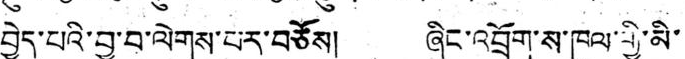བྱེད་པའི་བྱ་བ་ལེགས་པར་བཅོས། ཞིང་འབྲོག་ས་ཁུལ་གྱི་མི་
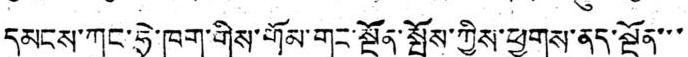དམངས་ཀུང་ཧྲེ་ཁག་གིས་གོམ་གང་སྔོན་སྤོས་ཀྱིས་ཕྱུགས་ནད་སྔོན་་་
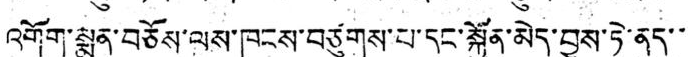འགོག་སྨན་བཅོས་ལས་ཁུངས་བཙུགས་པ་དང་སྐྱོན་མེད་བྱས་ཏེ་ནད་་
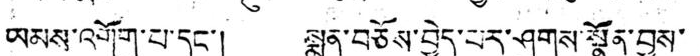ཡམས་འགོག་པ་དང་། སྨན་བཅོས་བྱེད་པར་ཤུགས་སྣོན་བྱས་
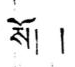སོ། །
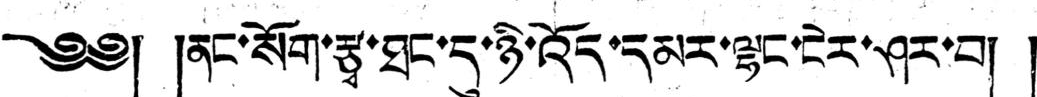༄༅། །ནང་སོག་རྩྭ་ཐང་དུ་ཉི་འོད་དམར་ལྷང་ངེར་ཤར་བ། །
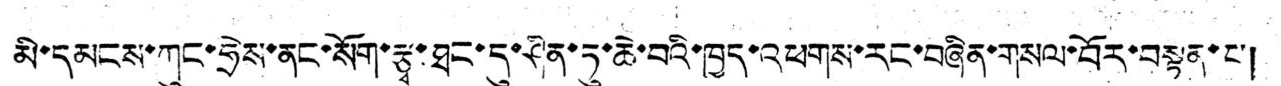མི་དམངས་ཀུང་ཧྲེས་ནང་སོག་རྩྭ་ཐང་དུ་ཤིན་ཏུ་ཆེ་བའི་ཁྱད་འཕགས་རང་བཞིན་གསལ་བོར་བསྟན་པ།
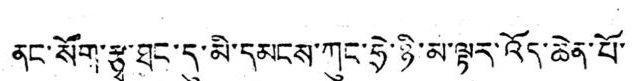ནང་སོག་རྩྭ་ཐང་དུ་མི་དམངས་ཀུང་ཧྲེ་ཉི་མ་ལྟར་འོད་ཆེན་པོ་
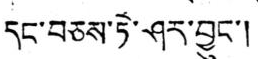དང་བཅས་ཏེ་ཤར་བྱུང་།
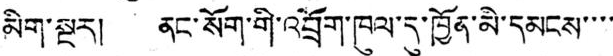མིག་སྔར། ནང་སོག་གི་འབྲོག་ཁུལ་དུ་ཁྱོན་མི་དམངས་་་་
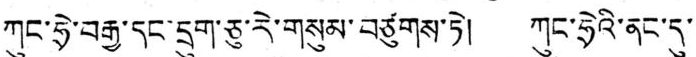ཀུང་ཧྲེ་བརྒྱ་དང་དྲུག་ཅུ་རེ་གསུམ་བཙུགས་ཏེ། ཀུང་ཧྲེའི་ནང་དུ་
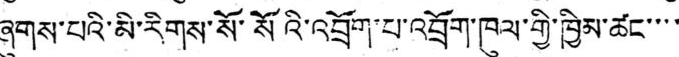ཞུགས་པའི་མི་རིགས་སོ་སོའི་འབྲོག་པ་འབྲོག་ཁུལ་གྱི་ཁྱིམ་ཚང་་་་
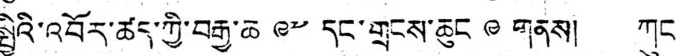སྤྱིའི་འབོར་ཚད་ཀྱི་བརྒྱ་ཆ ༩༧ དང་གྲངས་ཆུང ༩ གནས། ཀུང་
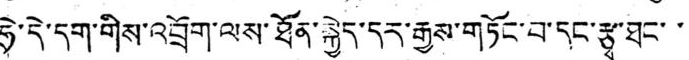ཧྲེ་དེ་དག་གིས་འབྲོག་ལས་ཐོན་སྐྱེད་དར་རྒྱས་གཏོང་བ་དང་རྩྭ་ཐང་་
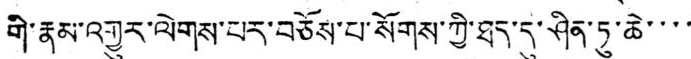གི་རྣམ་འགྱུར་ལེགས་པར་བཅོས་པ་སོགས་ཀྱི་ཐད་དུ་ཤིན་ཏུ་ཆེ་་་་
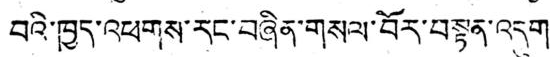བའི་ཁྱད་འཕགས་རང་བཞིན་གསལ་བོར་བསྟན་འདུག
